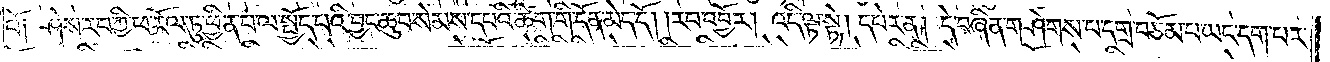པོ། ཤེས་རབ་ཀྱི་ཕ་རོལ་ཏུ་ཕྱིན་པ་ལ་སྤྱོད་པའི་བྱང་ཆུབ་སེམས་དཔའི་ཚིག་གི་དོན་མེད་དོ། །རབ་འབྱོར། འདི་ལྟ་སྟེ། དཔེར་ན། དེ་བཞིན་གཤེགས་པ་དགྲ་བཅོམ་པ་ཡང་དག་པར་
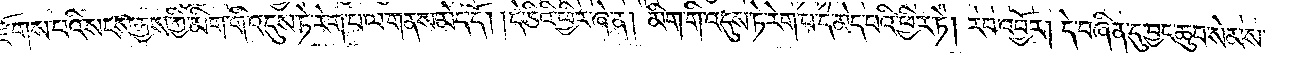རྫོགས་པའི་སངས་རྒྱས་ཀྱི་མིག་གི་འདུས་ཏེ་རེག་པ་ལ་གནས་མེད་དོ། །དེ་ཅིའི་ཕྱིར་ཞེ་ན། མིག་གི་འདུས་ཏེ་རེག་པ་དེ་མེད་པའི་ཕྱིར་ཏེ། རབ་འབྱོར། དེ་བཞིན་དུ་བྱང་ཆུབ་སེམས་
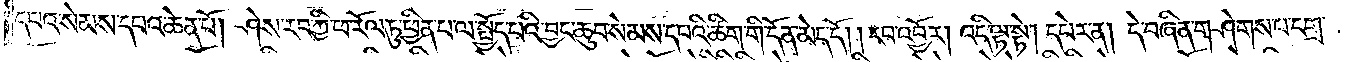དཔའ་སེམས་དཔའ་ཆེན་པོ། ཤེས་རབ་ཀྱི་ཕ་རོལ་ཏུ་ཕྱིན་པ་ལ་སྤྱོད་པའི་བྱང་ཆུབ་སེམས་དཔའི་ཚིག་གི་དོན་མེད་དོ། །རབ་འབྱོར། འདི་ལྟ་སྟེ། དཔེར་ན། དེ་བཞིན་གཤེགས་པ་དགྲ་
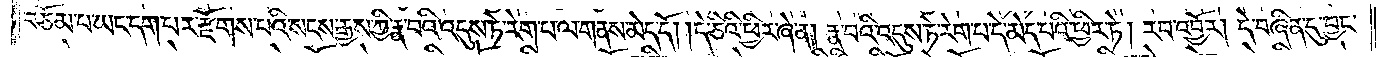བཅོམ་པ་ཡང་དག་པར་རྫོགས་པའི་སངས་རྒྱས་ཀྱི་རྣ་བའི་འདུས་ཏེ་རེག་པ་ལ་གནས་མེད་དོ། །དེ་ཅིའི་ཕྱིར་ཞེ་ན། རྣ་བའི་འདུས་ཏེ་རེག་པ་དེ་མེད་པའི་ཕྱིར་ཏེ། རབ་འབྱོར། དེ་བཞིན་དུ་བྱང་
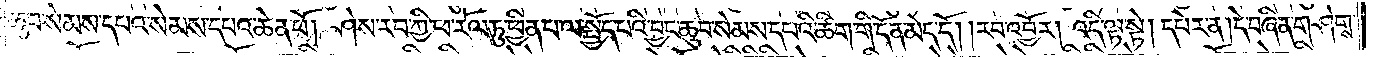ཆུབ་སེམས་དཔའ་སེམས་དཔའ་ཆེན་པོ། ཤེས་རབ་ཀྱི་ཕ་རོལ་ཏུ་ཕྱིན་པ་ལ་སྤྱོད་པའི་བྱང་ཆུབ་སེམས་དཔའི་ཚིག་གི་དོན་མེད་དོ། །རབ་འབྱོར། འདི་ལྟ་སྟེ། དཔེར་ན། དེ་བཞིན་གཤེགས་
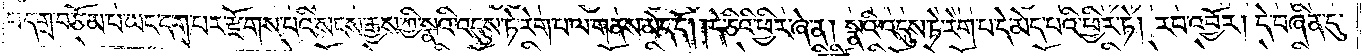པ་དགྲ་བཅོམ་པ་ཡང་དག་པར་རྫོགས་པའི་སངས་རྒྱས་ཀྱི་སྣའི་འདུས་ཏེ་རེག་པ་ལ་གནས་མེད་དོ། །དེ་ཅིའི་ཕྱིར་ཞེ་ན། སྣའི་འདུས་ཏེ་རེག་པ་དེ་མེད་པའི་ཕྱིར་ཏེ། རབ་འབྱོར། དེ་བཞིན་དུ་
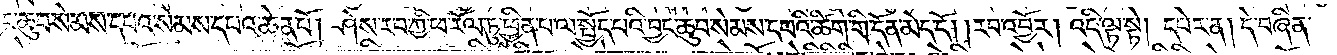བྱང་ཆུབ་སེམས་དཔའ་སེམས་དཔའ་ཆེན་པོ། ཤེས་རབ་ཀྱི་ཕ་རོལ་ཏུ་ཕྱིན་པ་ལ་སྤྱོད་པའི་བྱང་ཆུབ་སེམས་དཔའི་ཚིག་གི་དོན་མེད་དོ། །རབ་འབྱོར། འདི་ལྟ་སྟེ། དཔེར་ན། དེ་བཞིན་
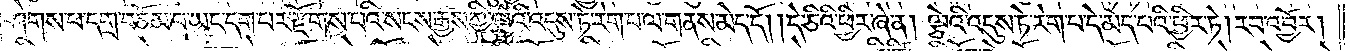གཤེགས་པ་དགྲ་བཅོམ་པ་ཡང་དག་པར་རྫོགས་པའི་སངས་རྒྱས་ཀྱི་ལྕེའི་འདུས་ཏེ་རེག་པ་ལ་གནས་མེད་དོ། །དེ་ཅིའི་ཕྱིར་ཞེ་ན། ལྕེའི་འདུས་ཏེ་རེག་པ་དེ་མེད་པའི་ཕྱིར་ཏེ། རབ་འབྱོར།
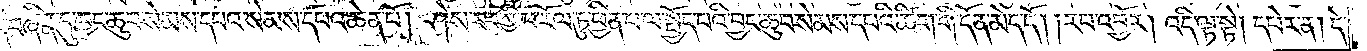དེ་བཞིན་དུ་བྱང་ཆུབ་སེམས་དཔའ་སེམས་དཔའ་ཆེན་པོ། ཤེས་རབ་ཀྱི་ཕ་རོལ་ཏུ་ཕྱིན་པ་ལ་སྤྱོད་པའི་བྱང་ཆུབ་སེམས་དཔའི་ཚིག་གི་དོན་མེད་དོ། །རབ་འབྱོར། འདི་ལྟ་སྟེ། དཔེར་ན། དེ་
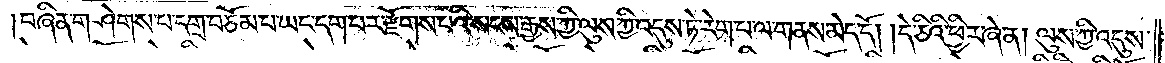བཞིན་གཤེགས་པ་དགྲ་བཅོམ་པ་ཡང་དག་པར་རྫོགས་པའི་སངས་རྒྱས་ཀྱི་ལུས་ཀྱི་འདུས་ཏ་རེག་པ་ལ་གནས་མེད་དོ། །དེ་ཅིའི་ཕྱིར་ཞེ་ན། ལུས་ཀྱི་འདུས་
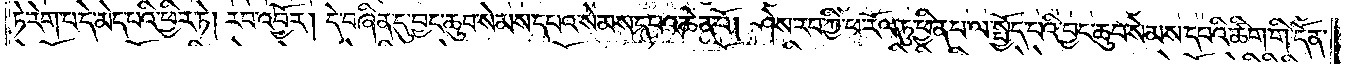ཏེ་རེག་པ་དེ་མེད་པའི་ཕྱིར་ཏེ། རབ་འབྱོར། དེ་བཞིན་དུ་བྱང་ཆུབ་སེམས་དཔའ་སེམས་དཔའ་ཆེན་པོ། ཤེས་རབ་ཀྱི་ཕ་རོལ་ཏུ་ཕྱིན་པ་ལ་སྤྱོད་པའི་བྱང་ཆུབ་སེམས་དཔའི་ཚིག་གི་དོན་
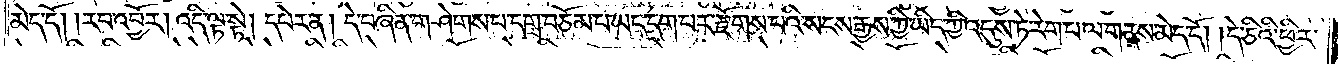མེད་དོ། །རབ་འབྱོར། འདི་ལྟ་སྟེ། དཔེར་ན། དེ་བཞིན་གཤེགས་པ་དགྲ་བཅོམ་པ་ཡང་དག་པར་རྫོགས་པའི་སངས་རྒྱས་ཀྱི་ཡིད་ཀྱི་འདུས་ཏེ་རེག་པ་ལ་གནས་མེད་དོ། །དེ་ཅིའི་ཕྱིར་
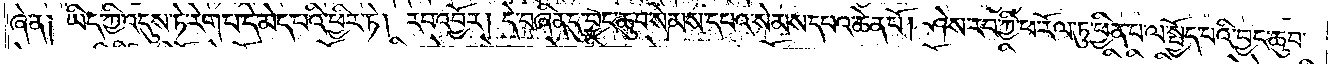ཞེ་ན། ཡིད་ཀྱི་འདུས་ཏེ་རེག་པ་དེ་མེད་པའི་ཕྱིར་ཏེ། རབ་འབྱོར། དེ་བཞིན་དུ་བྱང་ཆུབ་སེམས་དཔའ་སེམས་དཔའ་ཆེན་པོ། ཤེས་རབ་ཀྱི་ཕ་རོལ་ཏུ་ཕྱིན་པ་ལ་སྤྱོད་པའི་བྱང་ཆུབ་
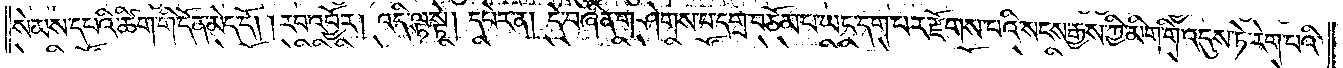སེམས་དཔའི་ཚིག་གི་དོན་མེད་དོ། །རབ་འབྱོར། འདི་ལྟ་སྟེ། དཔེར་ན། དེ་བཞིན་གཤེགས་པ་དགྲ་བཅོམ་པ་ཡང་དག་པར་རྫོགས་པའི་སངས་རྒྱས་ཀྱི་མིག་གི་འདུས་ཏེ་རེག་པའི་
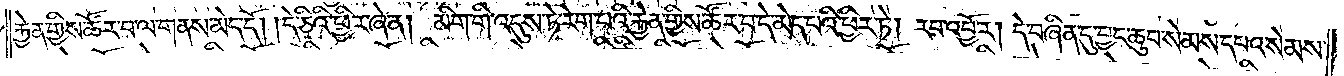རྐྱེན་གྱིས་ཚོར་བ་ལ་གནས་མེད་དོ། །དེ་ཅིའི་ཕྱིར་ཞེ་ན། མིག་གི་འདུས་ཏེ་རེག་པའི་རྐྱེན་གྱིས་ཚོར་བ་དེ་མེད་པའི་ཕྱིར་ཏེ། རབ་འབྱོར། དེ་བཞིན་དུ་བྱང་ཆུབ་སེམས་དཔའ་སེམས་
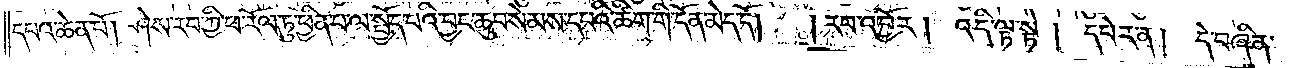དཔའ་ཆེན་པོ། ཤེས་རབ་ཀྱི་ཕ་རོལ་ཏུ་ཕྱིན་པ་ལ་སྤྱོད་པའི་བྱང་ཆུབ་སེམས་དཔའི་ཚིག་གི་དོན་མེད་དོ། །རབ་འབྱོར། འདི་ལྟ་སྟེ། དཔེར་ན། དེ་བཞིན་
